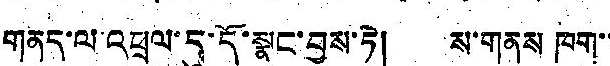གནད་ལ་འཕྲལ་དུ་དོ་སྣང་བྱས་ཏེ། ས་གནས ཁག་་
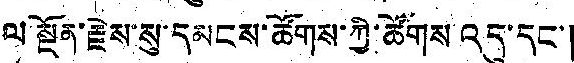ལ་སྔོན་རྗེས་སུ་དམངས་ཚོགས་ཀྱི་ཚོགས་འདུ་དང་།
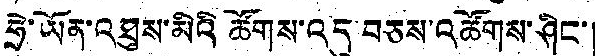ཧྲེ་ཡོན་འཐུས་མིའི ཚོགས་འདུ་བཅས་འཚོགས་ཤིང་།
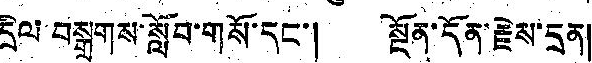དྲིལ བསྒྲགས་སློབ་གསོ་དང་། སྔོན་དོན་རྗེས་དྲན།
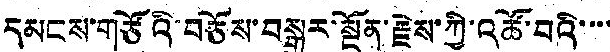དམངས་གཙོའི་བཅོས་བསྒྱུར་སྔོན་རྗེས་ཀྱི་འཚོ་བའི་་་་
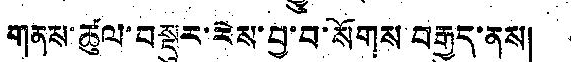གནས་ཚུལ་བསྡུར་རེས་བྱ་བ་སོགས་བརྒྱུད་ནས།
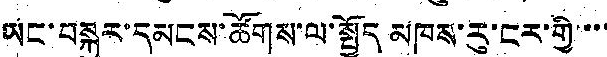ཡང་བསྐྱར་དམངས་ཚོགས་ལ་སྤྱོད མཁས་རུ་ངར་གྱི་་་་
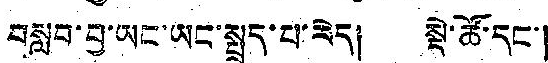བསླབ་བྱ་ཡང་ཡང་སྤྲད་པ་རེད། སྡེ་ཚོ་དང་།
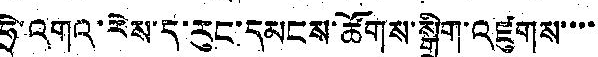ཧྲེ་འགའ་རེས་ད་རུང་དམངས་ཚོགས་སྒྲིག་འཛུགས་་་་་
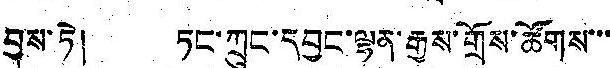བྱས་ཏེ། ཏང་ཀྲུང་དབྱང་ལྷན་རྒྱས་གྲོས་ཚོགས་་་
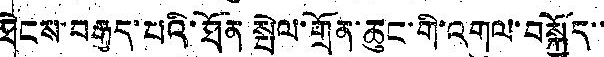ཐེངས་བརྒྱད་པའི་ཐོན་སྤེལ་གྲོན་ཆུང་གི་འགུལ་བསྐྱོད་་
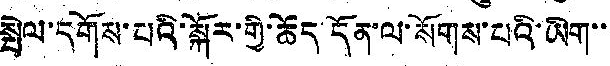སྤེལ་དགོས་པའི་སྐོར་གྱི་ཆོད དོན་ལ་སོགས་པའི་ཡིག་་
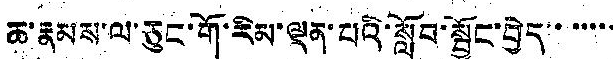ཆ་རྣམས་ལ་ཅུང་གོ་རིམ་ལྡན་པའི་སློབ་སྦྱོང་བྱེད་་་་་་་
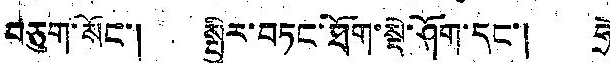བཅུག་སོང་། སྤྱིར་བཏང་ཐོག་སྡེ་ཤོག་དང་། ཧྲེ
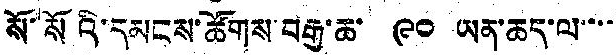སོ་སོའི་དམངས་ཚོགས་བརྒྱ་ཆ་ ༩༠ ཡན་ཆད་ལ་་་་
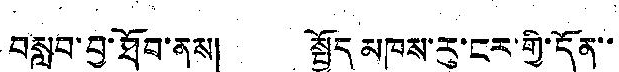བསླབ་བྱ་ཐོབ་ནས། སྤྱོད མཁས་རུ་ངར་གྱི་དོན་་
